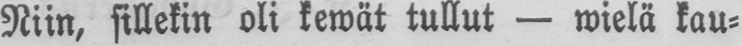Niin, sillekin oli kewät tullut — wielä kau-
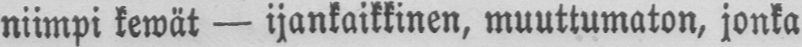niimpi kewät — ijankaikkinen, muuttumaton, jonka
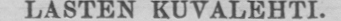LASTEN KUVALEHTI.
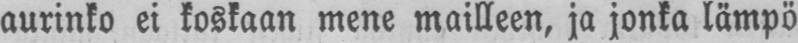aurinko ei koskaan mene mailleen, ja jonka lämpö
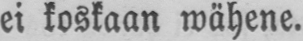ei koskaan wähene.
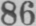86
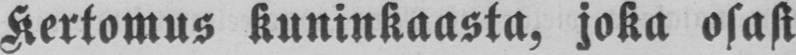Kertomus kuninkaasta, joka osasi
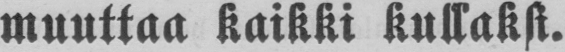muuttaa kaikki kullaksi.
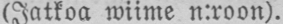(Jatkoa wiime n:roon).
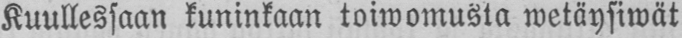Kuullessaan kuninkaan toiwomusta wetäysiwät
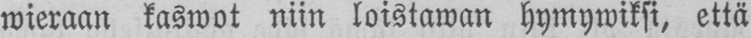wieraan kaswot niin loistawan hymywiksi, että
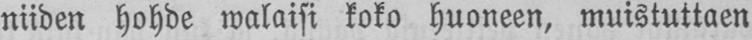niiden hohde walaisi koko huoneen, muistuttaen
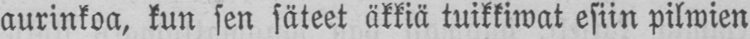aurinkoa, kun sen säteet äkkiä tuikkiwat esiin pilwien
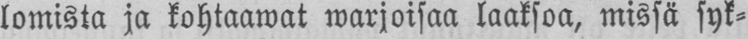lomista ja kohtaawat warjoisaa laaksoa, missä syk-
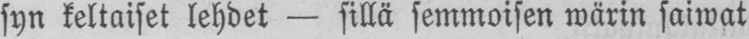syn keltaiset lehdet — sillä semmoisen wärin saiwat
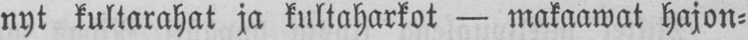nyt kultarahat ja kultaharkot — makaawat hajon-
